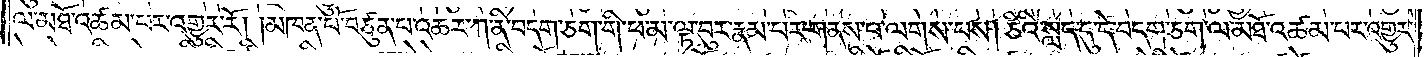ལ་མཐོ་འཚམ་པར་འགྱུར་རོ། །མཁན་པོ་བཙུན་པ་འཆར་ཀ་ནི་བདག་ཅག་གི་ཕ་མ་ལྟ་བུར་རྣམ་པར་གནས་པ་ལགས་པས། ཅིའི་སྐད་དུ་དེ་བདག་ཅག་ལ་མཐོ་འཚམ་པར་འགྱུར་
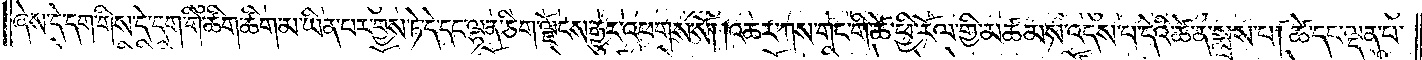ཞེས་དེ་དག་གིས་དེ་དག་གི་ཚིག་ཚིག་མ་ཡིན་པར་བྱས་ཏེ་དེ་དང་ལྷན་ཅིག་ལྗོངས་རྒྱུར་འཕགས་སོ། །འཆར་ཀས་གང་གི་ཚེ་ཕྱི་རོལ་གྱི་མཚམས་འདས་པ་དེའི་ཚེ་ན་སྨྲས་པ། ཚེ་དང་ལྡན་པ་
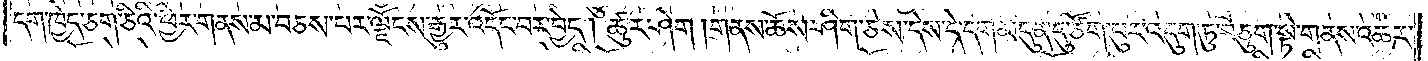དག་ཁྱེད་ཅག་ཅིའི་ཕྱིར་གནས་མ་བཅས་པར་ལྗོངས་རྒྱུར་འདོང་བར་བྱེད། ཚུར་ཤེག །གནས་ཆོས་ཤིག་ཅེས་དེས་དེ་དག་མདུན་དུ་ཙོག་པུར་འདུག་ཏུ་བཅུག་སྟེ་གནས་འཆར་
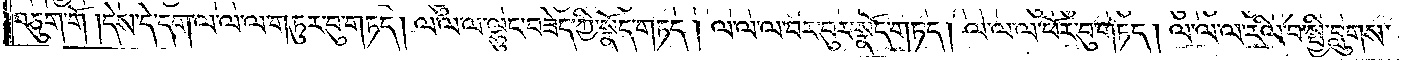བཅུག་གོ །དེས་དེ་དག་ལ་ལ་ལ་གཏུར་བུ་གཏད། ལ་ལ་ལ་ལྷུང་བཟེད་ཀྱི་སྣོད་གཏད། ལ་ལ་ལ་བར་བུར་སྣོད་གཏད། ལ་ལ་ལ་ཕོར་བུ་གཏད། ལ་ལ་ལ་རིལ་བ་སྤྱི་བླུགས་
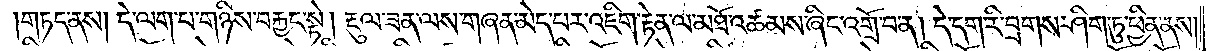གཏད་ནས། དེ་ལག་པ་གཉིས་བརྐྱང་སྟེ། རྡུལ་ཟན་ལས་གཞན་མེད་པར་འཇིག་རྟེན་ལ་མཐོ་འཚམས་ཞིང་འགྲོ་བ་ན། དེ་དག་རི་བྲགས་ཤིག་ཏུ་ཕྱིན་ནས་
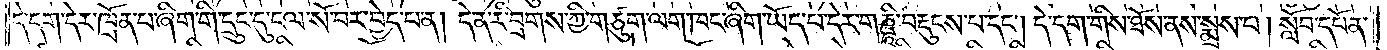དེ་དག་དེར་ཁྲོན་པ་ཞིག་གི་དྲུང་དུ་ངལ་སོ་བར་བྱེད་པ་ན། དེ་ན་རི་བྲགས་ཀྱི་གཙུག་ལག་ཁང་ཞིག་ཡོད་པ་དེར་གཎྜཱི་བརྡུངས་པ་དང༌། དེ་དག་གིས་ཐོས་ནས་སྨྲས་པ། སློབ་དཔོན་
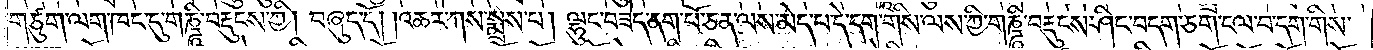གཙུག་ལག་ཁང་དུ་གཎྜཱི་བརྡུངས་ཀྱི། བཞུད་དོ། །འཆར་ཀས་སྨྲས་པ། ལྷུང་བཟེད་ནག་པོ་ཅན་ལས་མེད་པ་དེ་དག་གིས་ལས་ཀྱི་གཎྜཱི་བརྡུངས་ཤིང་བདག་ཅག་ངལ་བ་དག་གིས་
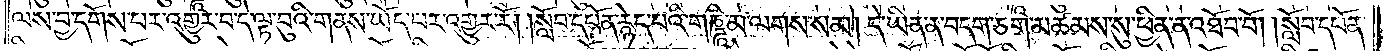ལས་བྱ་དགོས་པར་འགྱུར་བ་དེ་ལྟ་བུའི་གནས་ཡོད་པར་འགྱུར་རོ། །སློབ་དཔོན་རྙེད་པའི་གཎྜཱི་མ་ལགས་སམ། དེ་ཡིན་ན་བདག་ཅག་མཚམས་སུ་ཕྱིན་ན་འཐོབ་བོ། །སློབ་དཔོན་
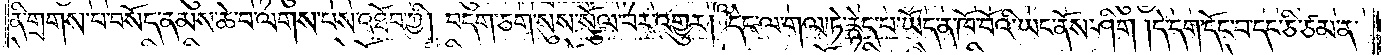ནི་གྲགས་པ་བསོད་ནམས་ཆེ་བ་ལགས་པས་འཐོབ་ཀྱི། བདག་ཅག་སུས་སྩོལ་བར་འགྱུར། དེང་ལ་གལ་ཏེ་རྙེད་པ་ཡོད་ན་ཁོ་བོའི་ཡང་ནོས་ཤིག །དེ་དག་དོང་བ་དང་ཅི་ཙམ་ན་
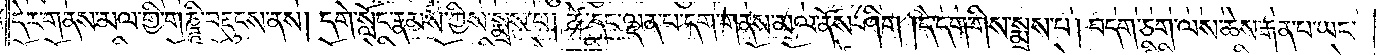དེར་གནས་མལ་གྱི་གཎྜཱི་བརྡུངས་ནས། དགེ་སློང་རྣམས་ཀྱིས་སྨྲས་པ། ཚེ་དང་ལྡན་པ་དག་གནས་མལ་ནོས་ཤིག །དེ་དག་གིས་སྨྲས་པ། བདག་ཅག་ལས་ཆེས་རྒན་པ་ཡང་
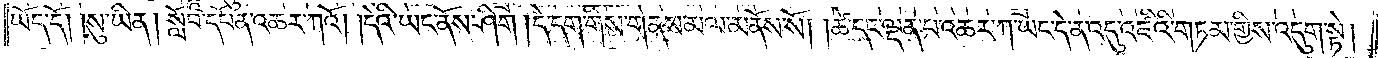ཡོད་དོ། །སུ་ཡིན། སློབ་དཔོན་འཆར་ཀའོ། །དེའི་ཡང་ནོས་ཤིག །དེ་དག་གིས་གནས་མལ་མནོས་སོ། །ཚེ་དང་ལྡན་པ་འཆར་ཀ་ཡང་དེ་ན་འདུ་འཛིའི་གཏམ་གྱིས་འདུག་སྟེ།
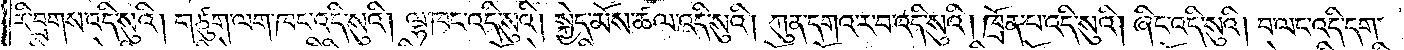རི་བྲགས་འདི་སུའི། གཙུག་ལག་ཁང་འདི་སུའི། ལྷ་ཁང་འདི་སུའི། སྐྱེད་མོས་ཚལ་འདི་སུའི། ཀུན་དགའ་ར་བ་འདི་སུའི། ཁྲོན་པ་འདི་སུའི། ཞིང་འདི་སུའི། བ་ལང་འདི་དག་
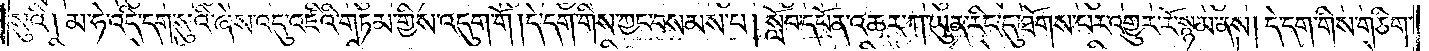སུའི། མ་ཧེ་འདི་དག་སུའི་ཞེས་འདུ་འཛིའི་གཏམ་གྱིས་འདུག་གོ །དེ་དག་གིས་ཀྱང་བསམས་པ། སློབ་དཔོན་འཆར་ཀ་ཡུན་རིང་དུ་ཐོགས་པར་འགྱུར་རོ་སྙམ་ནས། དེ་དག་གིས་གཅིག་
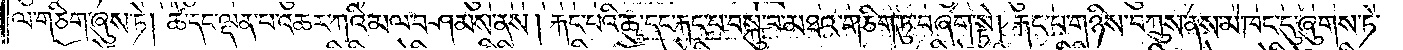ལ་གཅིག་ཞུས་ཏེ། ཚེ་དང་ལྡན་པ་འཆར་ཀའི་མལ་བཤམས་ནས། རྐང་པའི་ཆུ་དང་རྐང་པ་བསྐུ་བ་མཐའ་གཅིག་ཏུ་བཞག་སྟེ། རྐང་པ་གཉིས་བཀྲུས་ནས་མེ་ཁང་དུ་ཞུགས་ཏེ་
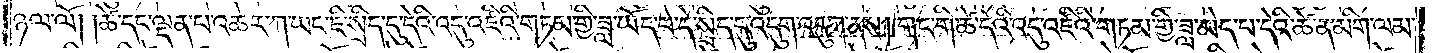ཉལ་ལོ། །ཚེ་དང་ལྡན་པ་འཆར་ཀ་ཡང་ཇི་སྲིད་དུ་དེའི་འདུ་འཛིའི་གཏམ་གྱི་ཟླ་ཡོད་པ་དེ་སྲིད་དུ་འདུག་འདུག་ནས། གང་གི་ཚེ་དེའི་འདུ་འཛིའི་གཏམ་གྱི་ཟླ་མེད་པ་དེའི་ཚེ་ན་མིག་ལམ་
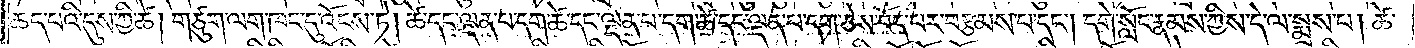ཆད་པའི་དུས་ཀྱི་ཚེ། གཙུག་ལག་ཁང་དུ་འོངས་ཏེ། ཚེ་དང་ལྡན་པ་དག་ཚེ་དང་ལྡན་པ་དག་ཚེ་དང་ལྡན་པ་དག་ཅེས་བོད་པར་བརྩམས་པ་དང༌། དགེ་སློང་རྣམས་ཀྱིས་དེ་ལ་སྨྲས་པ། ཚེ་
